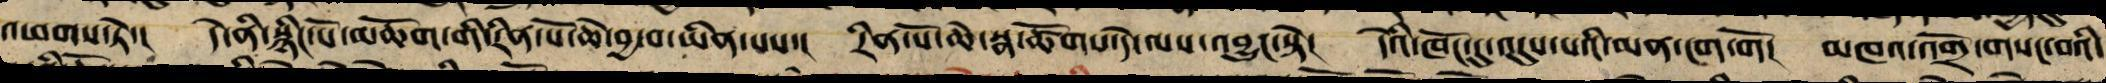འཕགས་ཏེ་། དེ་ནི་སྙིང་པོ་མཆོག་གི་རིན་པོ་ཆེ་བྱ་བ་ཡིན་པས་། རིན་པོ་ཆེ་སྣ་ཚོགས་དེ་ལས་འབྱུང་སྟེ། དེའི་ཁོང་དུ་འདུས་པའི་མན་ངག་གོ། མཁའ་འགྲོ་གསང་བའི་
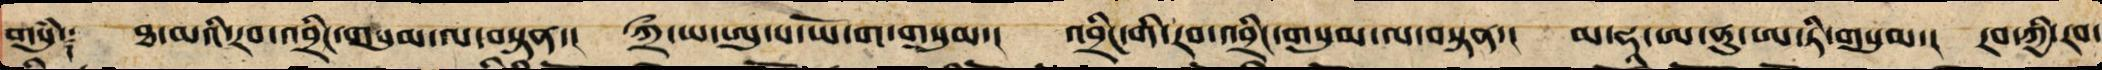གསུཾ༑ ཐ་མའི་རབ་འབྲིང་གསུམ་ལ་བསྟན་། ཀྲྀ་ཡ་ཨུ་པ་ཡོ་ག་གསུམ་། འབྲིང་གི་རབ་འབྲིང་གསུམ་ལ་བསྟན་། མ་ཧཱ་ཨ་ནུ་ཨ་ཏི་གསུམ་། རབ་ཀྱི་རབ་
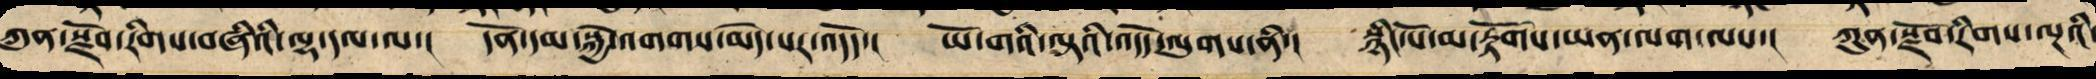ཀུན་སྫོབ་རིགས་བཞིའི་ལྷ་དལ་ལ་། དོན་དམ་སྐྱེ་འགག་མེད་པར་འདོད་། ཡོ་གའི་ལྟའི་འདོད་ལུགས་ནི་། སྙིང་པོ་མ་རྟོགས་ཡན་ལག་ལས་། ཀུན་སྫོབ་རིགས་ལྔའི་
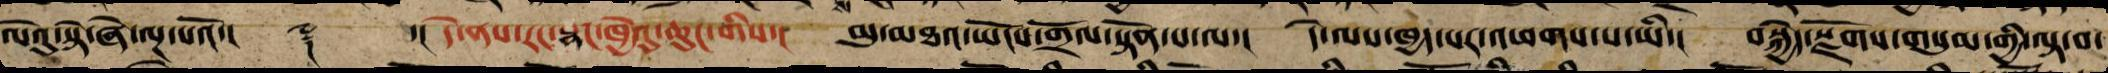ལེའུ་སྟེ་ཞེ་ལྔ་པའོ་།། ༈ ་།། དེ་ནས་རང་སྣང་ཁྱེའུ་ཆུང་གིས་། མུ་མཐའ་ཡོངས་གྲོལ་སྟོན་པ་ལ་། དེ་ལས་ཁྱད་པར་འཕགས་པ་ཡི་། བསྐྱེད་སྫོགས་གསུམ་གྱི་ལྟ་བ་
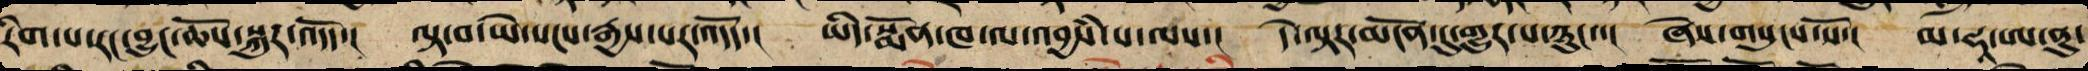རིག་པ་རང་བྱུང་ཆོས་སྐུར་འདོད་། ལྟ་བ་ཡེ་སངས་རྒྱས་པར་འདོད་། ཡིད་སྨོན་ཁ་ལ་འབྱཾས་པ་ལས་། དེ་ལྟར་མངོན་དུ་གྱུར་པ་ཉུང་་། ཞེས་གསུངས་སོ་། མ་ཧཱ་ཨ་ནུ་
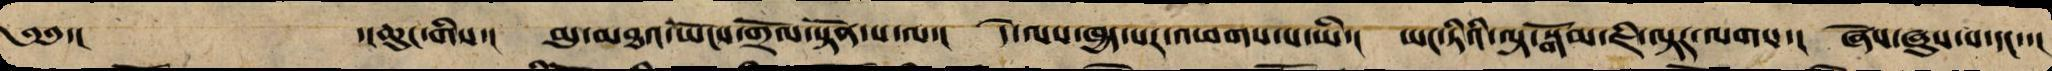༄༅་།  ་།ཆུང་གིས་། མུ་མཐའ་ཡོངས་གྲོལ་སྟོན་པ་ལ་། དེ་ལས་ཁྱད་པར་འཕགས་པ་ཡི་། ཡང་ཏིའི་ལྟ་སྒོམ་ཇི་ལྟར་ལགས་། ཞེས་ཞུས་པ་དང་་།
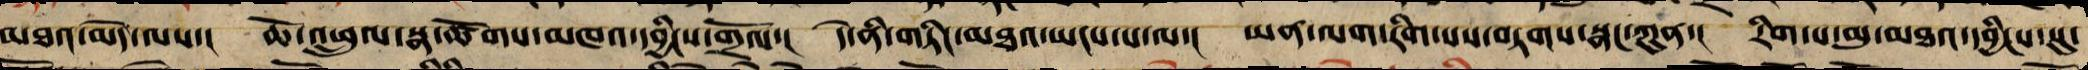མཐའ་མེད་ལས་། ཆོ་འཕྲུལ་སྣ་ཚོགས་མཁའ་དབྱིངས་གྲོལ་། དེ་བཞིན་གཏིང་མཐའ་ཡངས་པ་ལ་། ཡན་ལག་རིག་པས་བཏགས་སྣང་ཀུན་། རིག་པ་མུ་མཐའ་དབྱིངས་སུ་
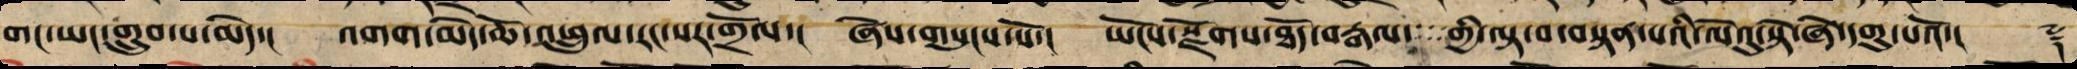གང་ཡང་གྲུབ་པ་མེད་། འགག་མེད་ཆོ་འཕྲུལ་རང་སར་གྲོལ་། ཞེས་གསུངས་སོ་། ཡོངས་སྫོགས་ཐོད་བརྒལ་གྱི་ལྟ་བ་བསྟན་པའི་ལེའུ་སྟེ་ཞེ་དགུ་པའོ་།། ༈
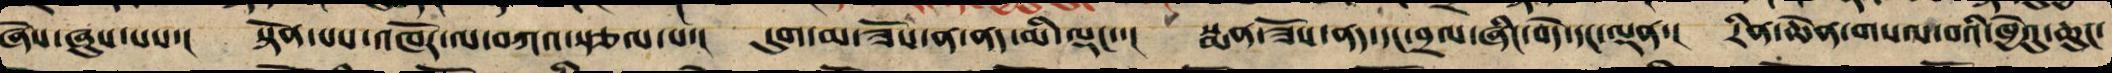ཞེས་ཞུས་པས་། སྟོན་པས་འཁོར་ལ་བཀའ་སྩལ་པ་། དུག་མ་ཟོས་ན་ནད་མི་ལྡང་་། སྨན་ཟོས་ནད་དང་བྲལ་ཞིང་བདེ་དང་ལྡན་། རིན་ཆེན་གསལ་བའི་ཁྱེའུ་ཆུང་
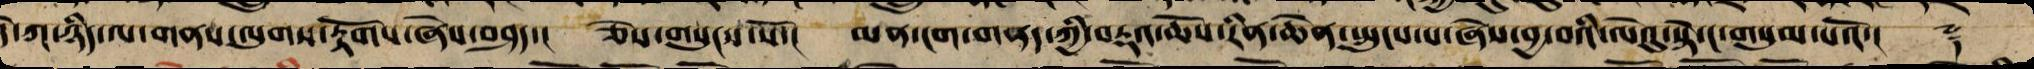དེ་ཀ་ཉིད་ལ་གནས་ལུགས་རྟོགས་ཞེས་བཤད་། ཅེས་གསུངས་སོ་། མན་ངག་གནད་ཀྱི་བརྡའ་ཆོས་རིན་ཆེན་སྤུངས་པ་ཞེས་བྱ་བའི་ལེའུ་སྟེ་ང་གསུམ་པའོ་།། ༈
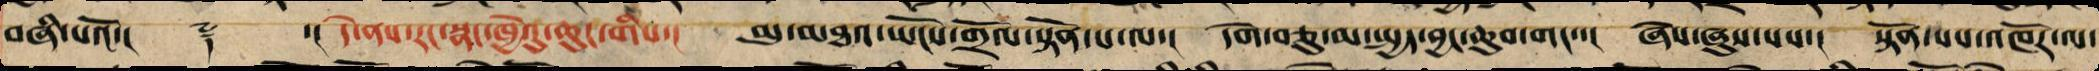བཞི་པའོ་།། ༈ ་། དེ་ནས་རང་སྣང་ཁྱེའུ་ཆུང་གིས་། མུ་མཐའ་ཡོངས་གྲོལ་སྟོན་པ་ལ་། དགེ་བཅུ་མ་སྤྱད་བྱང་ཆུབ་གང་་། ཞེས་ཞུས་པས་། སྟོན་པས་འཁོར་ལ་
